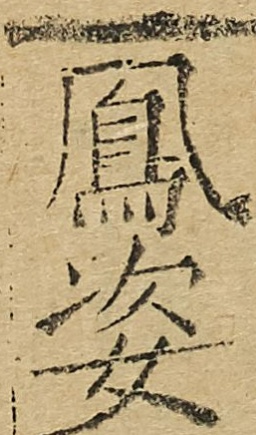鳳姿
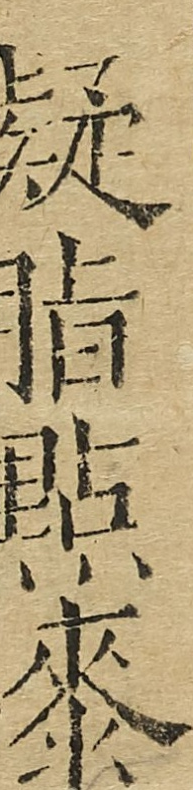凝脂點漆
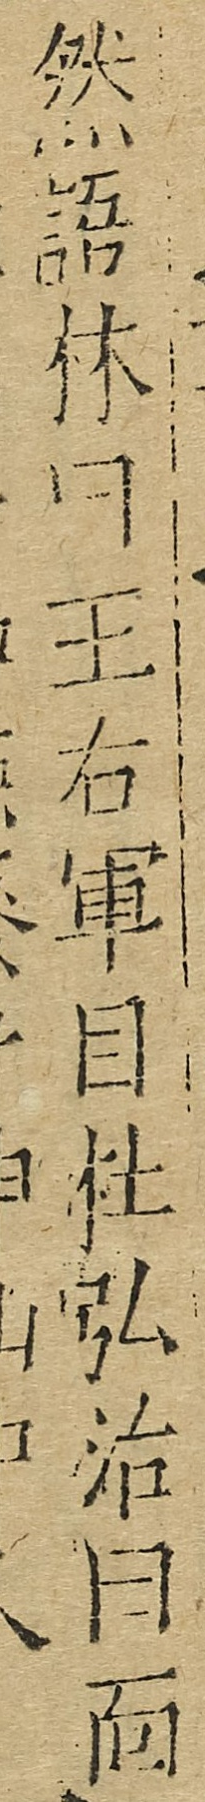然語林曰王右軍目杜弘治曰面
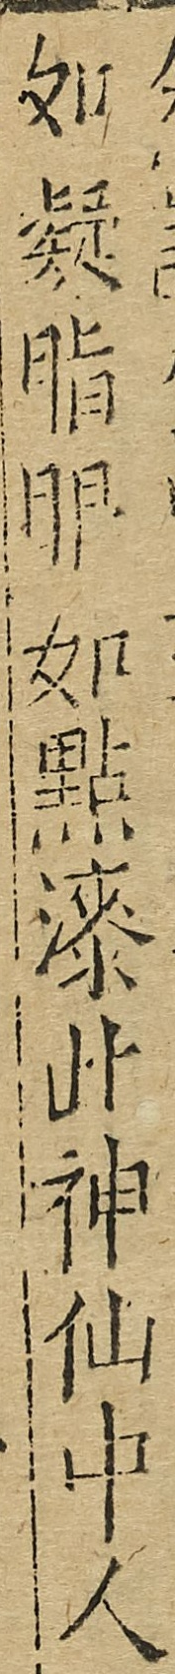如凝脂眼如點漆此神仙中人
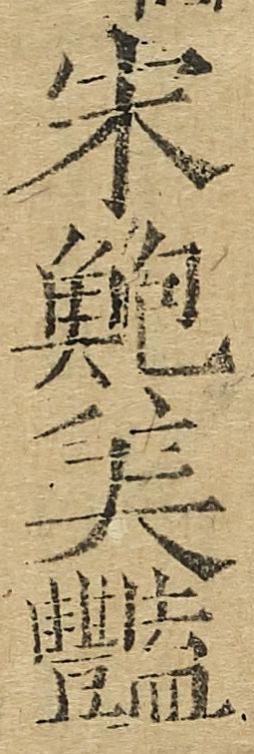宋鮑美豔
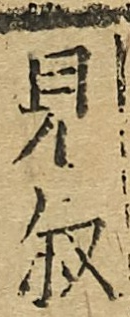見敘
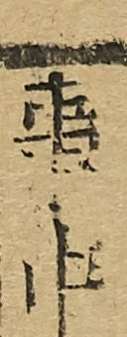事中
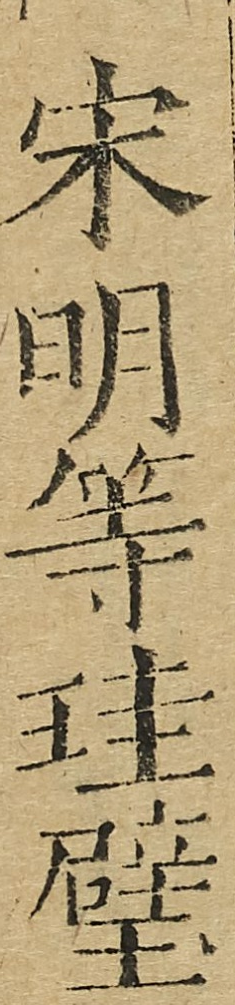宋明等珪璧
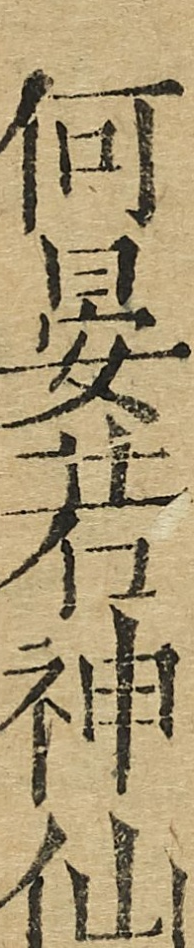何晏若神仙
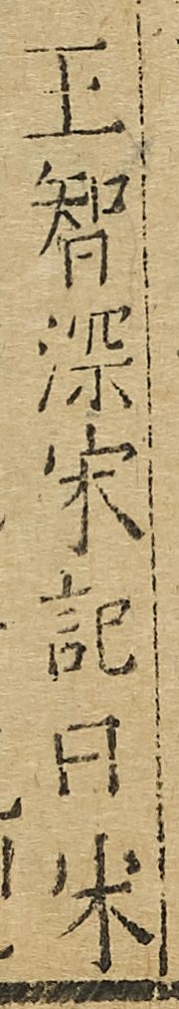王智深宋紀曰宋
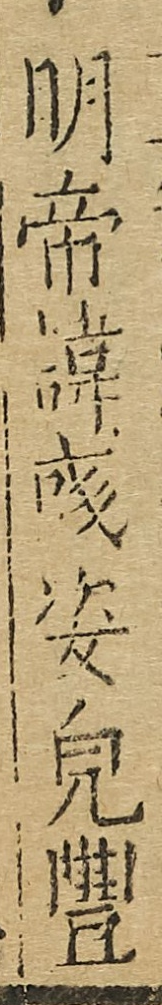明帝諱彧姿皃豐
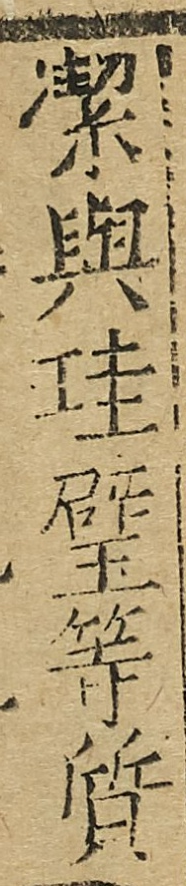潔與珪璧等質
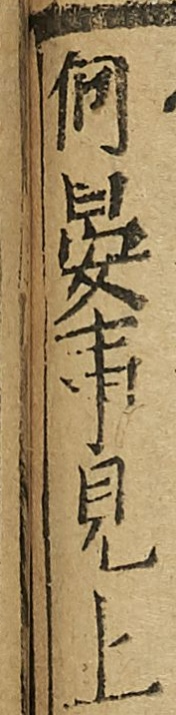何晏事見上
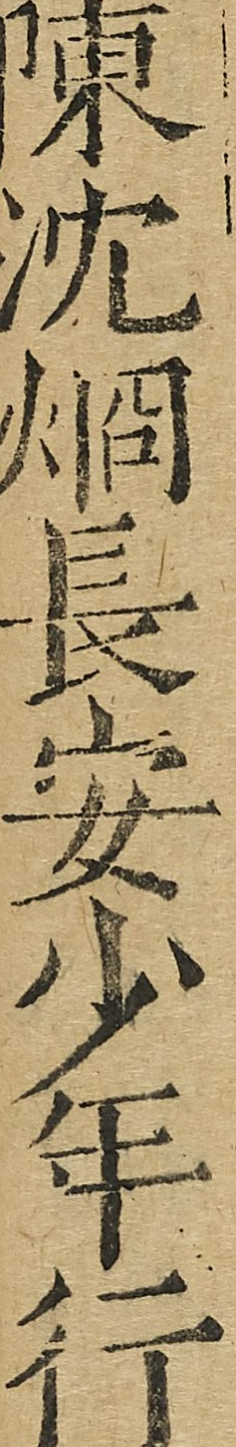陳沈炯長安少年行
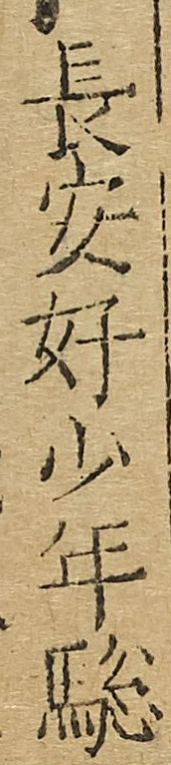長安好少年驄
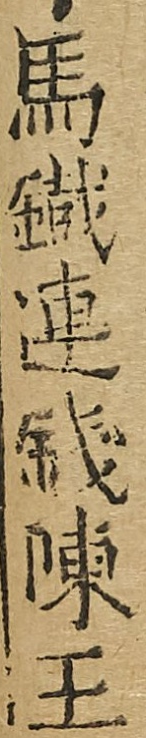馬鐵連錢陳王
